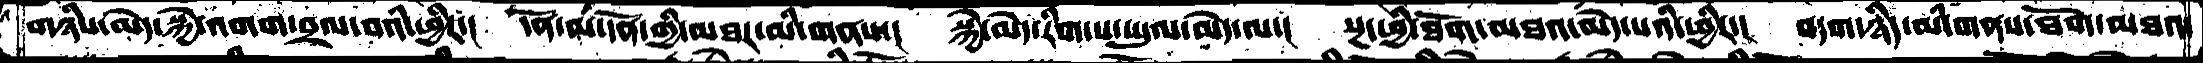གཉིས་མེད་སྐྱེ་འགག་བྲལ་བའི་ཕྱིར་།  དོན་ལ་དོན་གྱི་མཐར་མི་གནས་།  སྐྱེ་མེད་རིག་པ་ཡུལ་མེད་ལ།  སྔ་ཕྱི་ཐོག་མཐའ་མེད་པའི་ཕྱིར་།  བདག་ཉིད་མི་གནས་ཐོག་མཐའ་
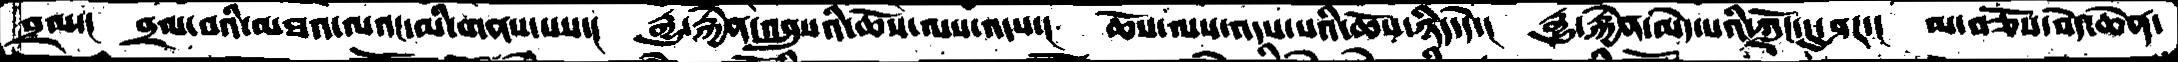བྲལ་།  བྲལ་བའི་མཐའ་ལའང་མི་གནས་པས་།  རྒྱུ་རྐྱེན་འབྲུསའི་ཆོས་ལས་འདས་།  ཆོས་ལས་འདས་པའི་ཆོས་ཉིད་དེ་།  རྒྱུ་རྐྱེན་མེད་པའི་ཀློང་དུ་ཤར་།  མ་བཅོས་བདེ་ཆེན་
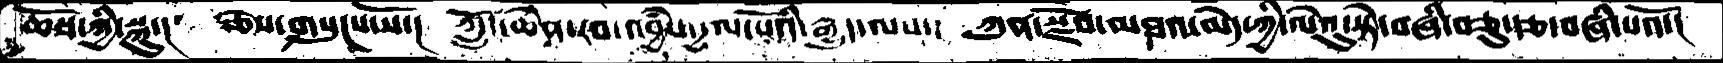ཆོསཀྱི་སྐུ་།  ཅེས་གསུངས་སོ་།  ཀློང་ཆེན་རབ་འབྱཾས་རྒྱལ་པོའི་རྒྱུད་ལས་།  ཀུན་སྫོབ་མཐའ་མེད་ཀྱི་ལེའུ་སྟེ་བཞི་བཅུ་དཅ་བཞི་པའོ་།
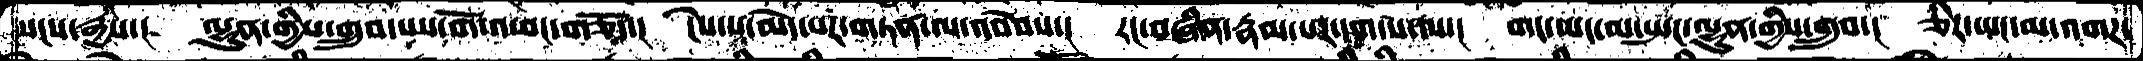སངས་རྒྱས་།  ལྷུན་གྱིས་གྲུབ་པས་གོ་འཕང་གཅོད་།  ངེས་པ་མེད་པར་གཏན་ལ་འབེབས་།  རང་བཞིན་རྣམ་པར་དག་པ་ལ་།  གང་ཡང་མ་སྤང་ལྷུན་གྱིས་གྲུབ་།  ཅིར་ཡང་མ་འགཌ་
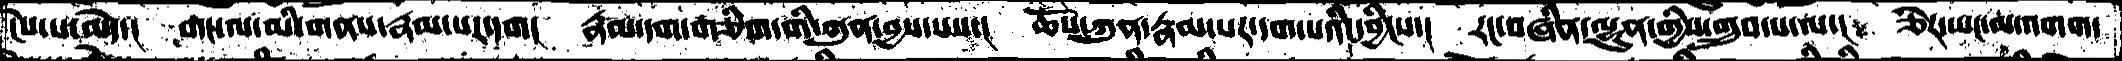ངེས་པ་མེད་།  གང་ལ་མི་གནས་རྣམ་པར་དག།  རྣམ་དག་གཅིག་གི་ཀུན་བྱས་པས་།  ཆོས་ཀུན་རྣམ་པར་དག་པའི་དབྱིངས་།  རང་བཞིན་ལྷུན་གྱིས་གྲུབ་པ་ལ་།  ཅིར་ཡང་མ་འགག་
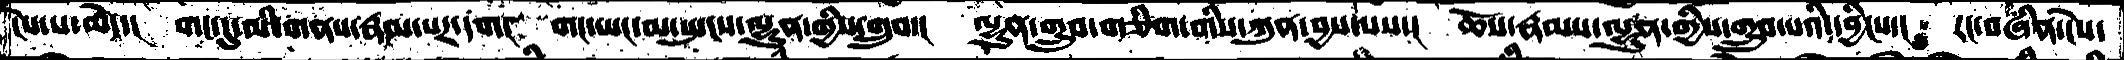ངེས་པ་མེད་།  གང་དུ་མི་གནས་རྣམ་པར་དག།  གང་ཡང་མ་སྤངས་ལྷུན་གྱིས་གྲུབ་།  ལྷུན་གྲུབ་གཅིག་གིས་ཀུན་བྱས་པས་།  ཆོས་རྣམས་ལྷུན་གྱིས་གྲུབ་པའི་དབྱིངས་།  རང་བཞིན་ངེས་
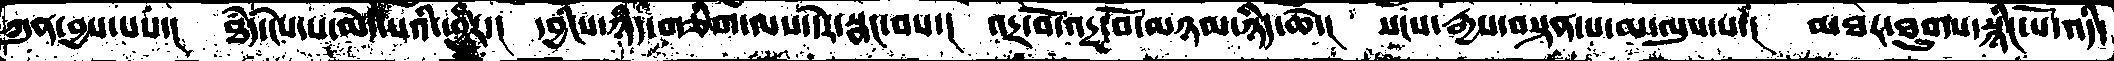ཀུན་བྱས་པས་།  ཐཾད་ངེས་པ་མེད་པའི་ཕྱིར་།  དབྱིངས་ཉིད་གཅིག་ལས་དེར་སྣང་བས་།  འདྲ་བོ་འདྲ་བོ་མཉམ་ཉིད་ཆེ་།  སངས་རྒྱས་བསྟན་པ་མ་ལུས་པ་།  མཐར་ཐུགས་སྙིང་པོ་འདི་
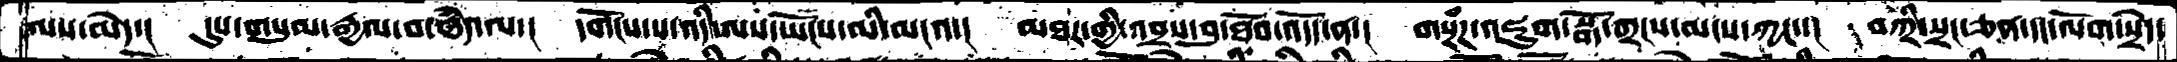ལས་མེད་།  དུས་གསུམ་རྒྱལ་བ་ཐཾད་ལ་།  དགོངས་པ་འདི་ལས་ཡོངས་མི་མངའ་།  མཐར་གྱི་འབྲས་བུ་ཐོབ་འདོད་ན་།  གསྔཾཌ་འཇུག་སྒོ་གྲངས་མངས་ཀྱང་་།  བཀྲི་སྲང་ཅན་དང་ལོག་སྲེད་
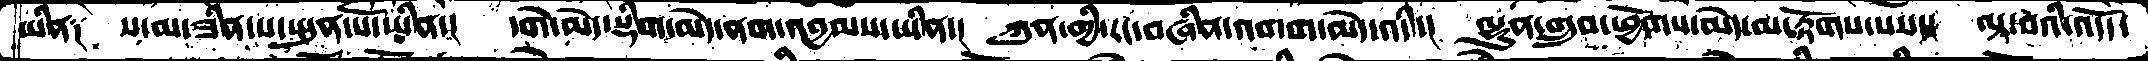ཡིན༑  ས་མ་ཟིན་པ་སྤུན་པོ་ཡིན་།  དགེ་མེད་སྡིག་མེད་ནག་འབྱམས་ཡིན་།  ཀུན་གྱི་རང་བཞིན་འགག་མེད་འདི་།  ལྷུན་གྲུབ་ཕྱོགས་མེད་མ་རྟོགས་པས་།  ལྟ་བའི་འདོད་
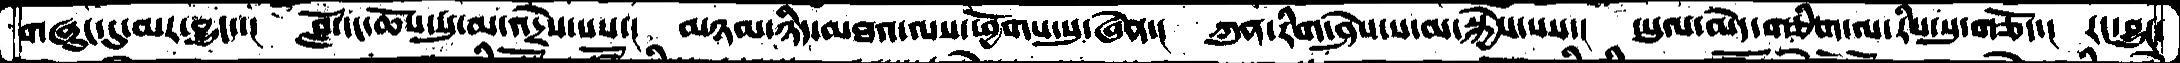གཞུང་དུ་མར་བྱུང་་།  བློ་དང་ཆོས་སུ་མ་འདྲེས་པས་།  མཉམ་ཉིད་མཐའ་ལས་ཕྱོགས་སུ་ཞེན་།  ཀུན་རིག་ཤེས་པ་མ་སྐྱེས་པས་།  ཡུལ་མེད་གཅིག་ལ་་རིས་སུ་གཅོད་།  རང་བྱུང་
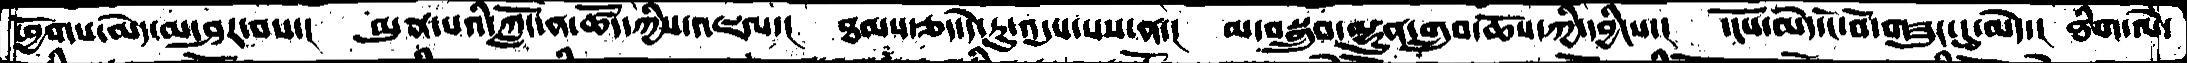ཕྱོགས་མེད་མ་ཤར་བས་།  མུན་པའི་ཀློང་ན་ཚོད་ཀྱིས་འཇལ་།  ཐམས་ཅད་དེ་རུ་འདུས་པས་ན་།  མ་བསྒྲུབ་ལྷུན་གྲུབ་ཆོས་ཀྱི་དབྱིངས་།  དངོས་མེད་ངོ་བོ་གཟུང་དུ་མེད་།  ཐིག་ལེ་
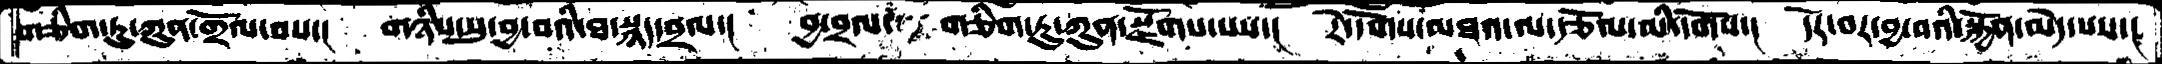གཅིག་ཏུ་ཀུན་གྲོལ་བས་།  གཉིས་སུ་བྱ་བའི་ཐ་སྙད་བྲལ་།  བྱ་བྲལ་གཅིག་ཏུ་ཀུན་སྫོགས་པས་།  རེ་དོགས་མཐའ་ལ་རྩོལ་མི་དགོས་།  དོར་བར་བྱ་བའི་སྐྱོན་མེད་པས་།
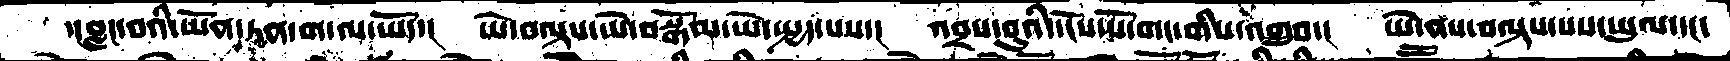་།བླང་བའི་ཡོན་ཏན་ག་ལ་ཡོད་།  ཡེ་བལྟས་ཡེ་བསྒོམ་ཡེ་སྤྱད་པས་།  འབྲས་བུའི་དངོས་པོ་གང་གིས་འགྲུབ་།  ཡེ་ནས་བལྟས་པས་ཡུལ་དང་
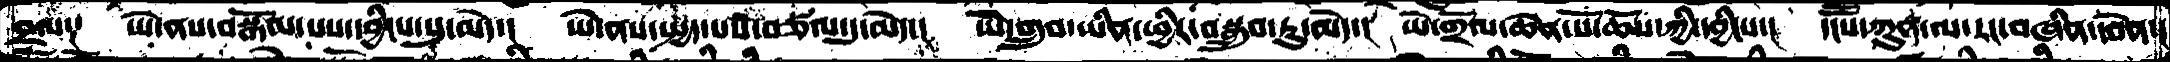བྲལ༑   ཡེ་ནས་བསྒོམ་པས་དབྱིངས་སུ་མེད་།  ཡེ་ནས་སྤྱད་པས་བཙལ་དུ་མེད་།  ཡེ་གྲུབ་ཡིན་ཕྱིར་བསྒྲུབ་ཏུ་མེད་།  ཡེ་གྲོལ་ཆེན་པོ་ཆོས་ཀྱི་དབྱིངས་།  དངཽས་ཀུན་ལ་རང་བཞིན་དབེན་།
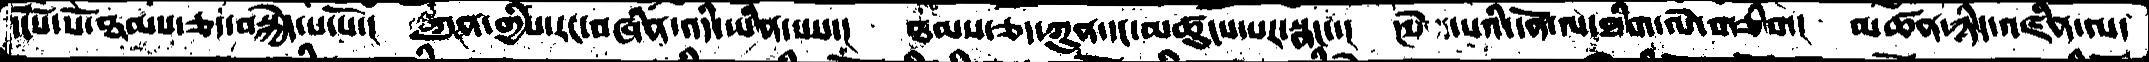དངོས་པོ་ཐམས་ཅད་བསྐྱེད་པ་པོ་།  ཀུན་གྱིས་རང་བཞིན་འདི་ཡིན་པས་།  ཐམས་ཅད་ཀུན་དང་མཚུངས་པར་སྣང་་།  ངེས་པའི་དོན་ལ་ཐིག་ལེ་གཅིག།  མཚན་ཉིད་འཛིན་ལ་
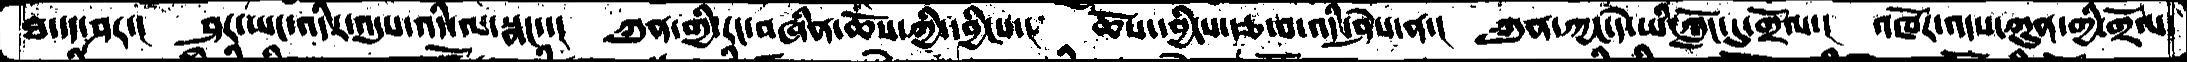ཐ་དད་ཤར་།   ཤར་ཡང་འདིར་འདུས་འདི་ལ་སྣང་་།  ཀུན་གྱི་རང་བཞིན་ཆོས་ཀྱི་དབྱིངས་།  ཆོས་དབྱིངས་རྩ་བ་འདི་ཤེས་ན་།  ཀུན་ཀྱང་དེ་ཡི་ཀློང་དུ་གྲོལ་།  འཁོར་འདས་ཀུན་གྱི་གྲོལ་
